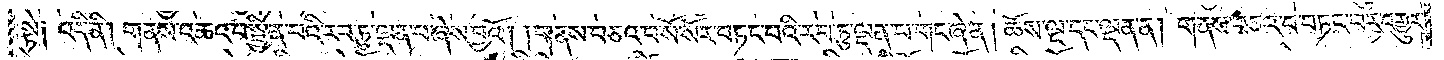སྟེ༑ འདི་ནི། གནས་འཆའ་བ་སྦྱིན་པའི་རབ་ཏུ་ལྡན་པ་ཞེས་བྱའོ། །གནས་བཅའ་བ་སོ་སོར་བཏང་བའི་རབ་ཏུ་ལྡན་པ་གང་ཞེ་ན། ཆོས་ལྔ་དང་ལྡན་ན། གནས་བཅའ་བ་བཏང་བར་འགྱུར་
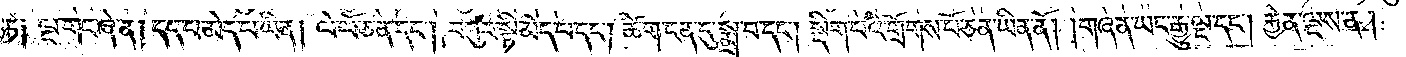ཏེ༑ ལྔ་གང་ཞེ་ན། དད་པ་མེད་པ་ཡིན། ལེ་ལོ་ཅན་དང༌། བཀུར་སྟི་མེད་པ་དང༌། ཚིག་ངན་དུ་སྨྲ་བ་དང༌། སྡིག་པའི་གྲོགས་པོ་ཅན་ཡིན་ནོ། །གཞན་ཡང་རྒྱུ་ལྔ་དང༌། རྐྱེན་ལྔས་ན།
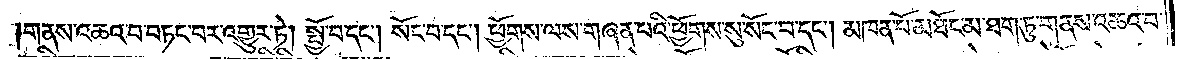གནས་འཆའ་བ་བཏང་བར་འགྱུར་ཏེ། སྤྱོ་བ་དང༌། སོང་བ་དང༌། ཕྱོགས་ལས་གཞན་པའི་ཕྱོགས་སུ་སོང་བ་དང༌། མཁན་པོ་མཐོང་མ་ཐག་ཏུ་གནས་འཆའ་བ་
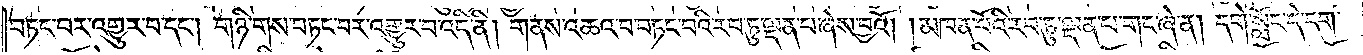བཏང་བར་འགྱུར་བ་དང༌། གཉི་གས་བཏང་བར་འགྱུར་བ་འདི་ནི། གནས་འཆའ་བ་བཏང་བའི་རབ་ཏུ་ལྡན་པ་ཞེས་བྱའོ། །མཁན་པོའི་རབ་ཏུ་ལྡན་པ་གང་ཞེ་ན། དགེ་སློང་དེ་དག་
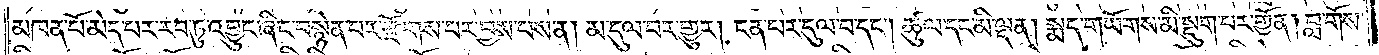མཁན་པོ་མེད་པར་རབ་ཏུ་འབྱུང་ཞིང་བསྙེན་པར་རྫོགས་པར་བྱས་པས་ན། མ་དུལ་བར་གྱུར། ངན་པར་དུལ་བ་དང༌། ཚུལ་དང་མི་ལྡན། སྨད་གཡོགས་མི་སྡུག་པར་གྱོན། བླ་གོས་
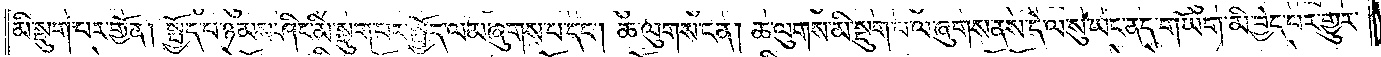མི་སྡུག་པར་གྱོན། སྤྱོད་པ་ཉམས་ཤིང་མི་སྡུག་པར་སྤྱོད་ལམ་ཞུགས་པ་དང༌། ཆ་ལུགས་ངན། ཆ་ལུགས་མི་སྡུག་ཕ་ལ་ཞུགས་ནས་དེ་ལ་སུ་ཡང་ནད་གཡོག་མི་བྱེད་པར་གྱུར་
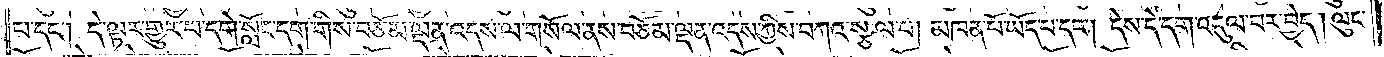པ་དང༌། དེ་ལྟར་གྱུར་པ་དགེ་སློང་དག་གིས་བཅོམ་ལྡན་འདས་ལ་གསོལ་ནས་བཅོམ་ལྡན་འདས་ཀྱིས་བཀའ་སྩལ་པ། མཁན་པོ་ཡོད་པ་དང༌། དེས་དེ་དག་འདུལ་བར་བྱེད། ལུང་
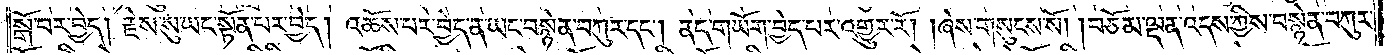སྒོ་བར་བྱེད། རྗེས་སུ་ཡང་སྟོན་པར་བྱེད། འཆོས་པར་བྱེད་ན་ཡང་བསྙེན་བཀུར་དང༌། ནད་གཡོག་བྱེད་པར་འགྱུར་རོ། །ཞེས་གསུངས་སོ། །བཅོམ་ལྡན་འདས་ཀྱིས་བསྙེན་བཀུར་
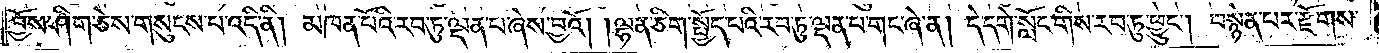བྱོས་ཤིག་ཅེས་གསུངས་པ་འདི་ནི། མཁན་པོའི་རབ་ཏུ་ལྡན་པ་ཞེས་བྱའོ། །ལྷན་ཅིག་སྤྱོད་པའི་རབ་ཏུ་ལྡན་པ་གང་ཞེ་ན། དེ་དགེ་སློང་གིས་རབ་ཏུ་ཕྱུང༌། བསྙེན་པར་རྫོགས་
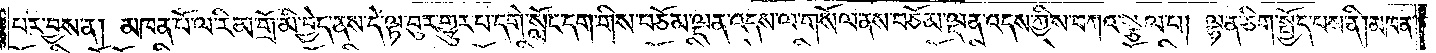པར་བྱས་ན། མཁན་པོ་ལ་རིམ་གྲོ་མི་བྱེད་ནས་དེ་ལྟ་བུར་གྱུར་པ་དགེ་སློང་དག་གིས་བཅོམ་ལྡན་འདས་ལ་གསོལ་ནས་བཅོམ་ལྡན་འདས་ཀྱིས་བཀའ་སྩལ་པ། ལྷན་ཅིག་སྤྱོད་པས་ནི། མཁན་
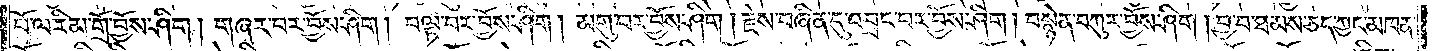པོ་ལ་རིམ་གྲོ་བྱོས་ཤིག །གཞར་བར་བྱོས་ཤིག །བལྟ་བར་བྱོས་ཤིག །མགུ་བར་བྱོས་ཤིག །རྗེས་བཞིན་དུ་འབྲང་བར་བྱོས་ཤིག །བསྙེན་བཀུར་བྱོས་ཤིག །བྱ་བ་ཐམས་ཅད་ཀྱང་མཁན་
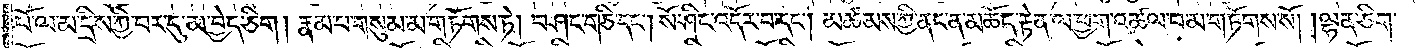པོ་ལ་མ་དྲིས་ཀྱི་བར་དུ་མ་བྱེད་ཅིག །རྣམ་པ་གསུམ་མ་གཏོགས་ཏེ། བཤང་གཅི་དང༌། སོ་ཤིང་འདོར་བ་དང༌། མཚམས་ཀྱི་ནང་ན་མཆོད་རྟེན་ལ་ཕྱག་འཚལ་བ་མ་གཏོགས་སོ། །ལྷན་ཅིག་
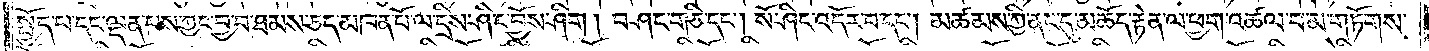སྤྱོད་པ་དང་ལྡན་པས་ཀྱང་བྱ་བ་ཐམས་ཅད་མཁན་པོ་ལ་དྲིས་ཤིང་བྱོས་ཤིག །བཤང་གཅི་དང༌། སོ་ཤིང་འདོར་བ་དང༌། མཚམས་ཀྱི་ནང་དུ་མཆོད་རྟེན་ལ་ཕྱག་འཚལ་བ་མ་གཏོགས་
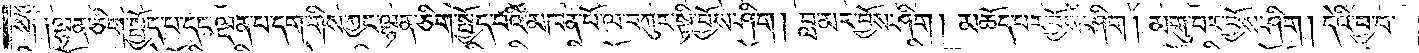སོ༑ ༑ལྷན་ཅིག་སྤྱོད་པ་དང་ལྡན་པ་དག་གིས་ཀྱང་ལྷན་ཅིག་སྤྱོད་པའི་མཁན་པོ་ལ་བཀུར་སྟི་བྱོས་ཤིག །བླ་མར་བྱོས་ཤིག །མཆོད་པར་བྱོས་ཤིག། མགུ་བར་བྱོས་ཤིག །དེའི་བྱ་བ་
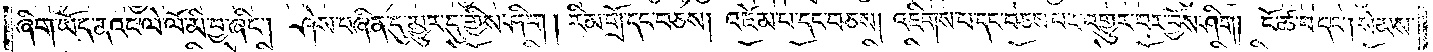ཞིག་ཡོད་ནའང་ལེ་ལོ་མི་བྱ་ཞིང༌། ཤེས་བཞིན་དུ་མྱུར་དུ་གྱིས་ཤིག །རིམ་གྲོ་དང་བཅས། འཛེམ་པ་དང་བཅས། འཇིགས་པ་དང་བཅས་པར་འགྱུར་བར་བྱོས་ཤིག །ངོ་ཚ་བ་དང༌། སེམས་
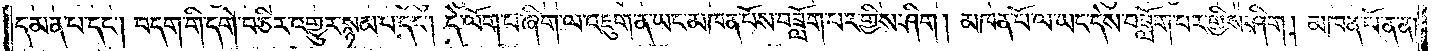དམན་པ་དང༌། བདག་གི་དགེ་བ་ཅིར་འགྱུར་སྙམ་པ་དང༌། དེ་ལོག་པ་ཞིག་ལ་འཇུག་ན་ཡང་མཁན་པོས་བཟློག་པར་གྱིས་ཤིག །མཁན་པོ་ལ་ཡང་དེས་བཟློག་པར་གྱིས་ཤིག །མཁན་པོ་ན་ན།
